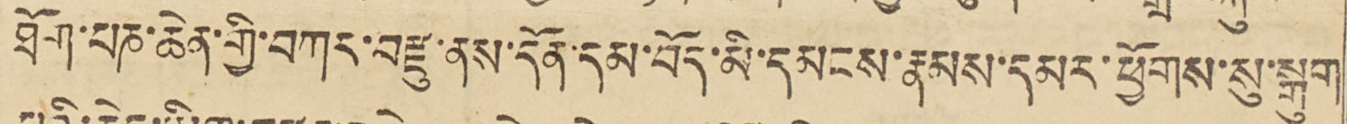ཐོག་པཎ་ཆེན་གྱི་བཀར་བརྫུ་ནས་དོན་དམ་བོད་མི་དམངས་རྣམས་དམར་ཕྱོགས་སུ་སྒུག
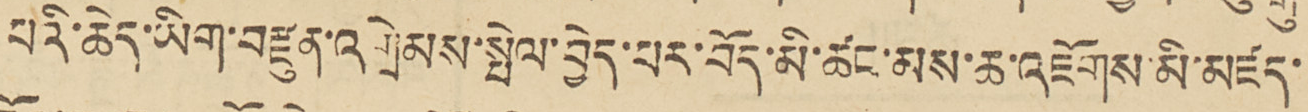པའི་ཆེད་ཡིག་བརྫུན་འགྲེམས་སྤེལ་བྱེད་པར་བོད་མི་ཚང་མས་ཆ་འཇོགས་མི་མཛད་
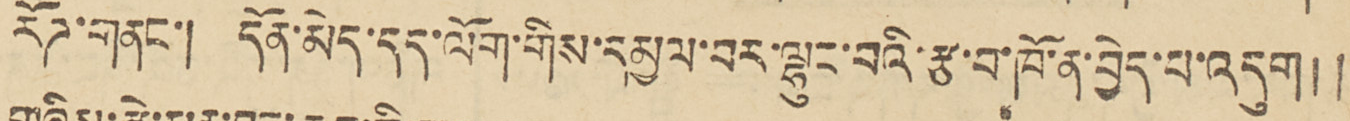རོཌ་གནང་། དོན་མེད་དད་ལོག་གིས་དམྱལ་བར་ལྷུང་བའི་རྩ་བ་ཁོ་ན་བྱེད་པ་འདུག།།།
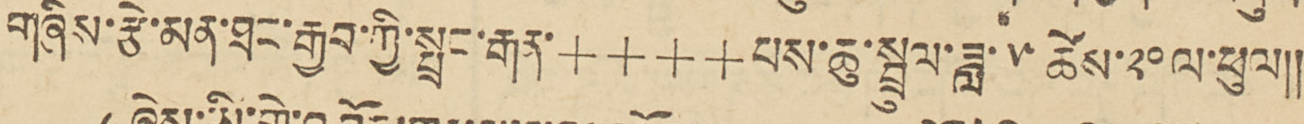གཞིས་རྩེ་ནམ་ཐང་རྒྱབ་ཀྱི་སྤྲང་རྒན་++++པས་ཆུ་སྦྲུལ་ཟླ་༥ཚེས་༢༠ལ་ཕུལ།།
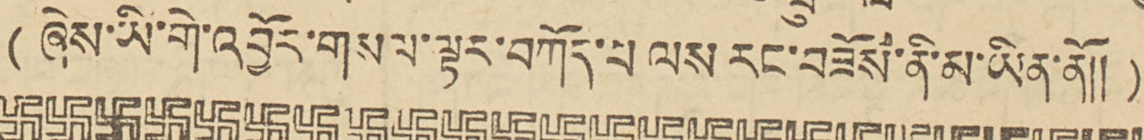( ཞེས་ཡི་གེ་འབྱོར་གསལ་ལྟར་བཀོད་པ ལས རང་བཟོས་ནི་མ་ཡིན་ནོ།། )
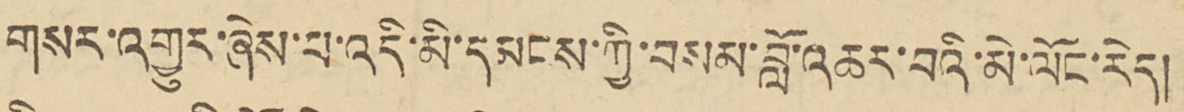གསར་འགྱུར་ཞེས་པ་འདི་མི་དམངས་ཀྱི་བསམ་བློ་འཆར་བའི་མེ་ལོང་རེད།
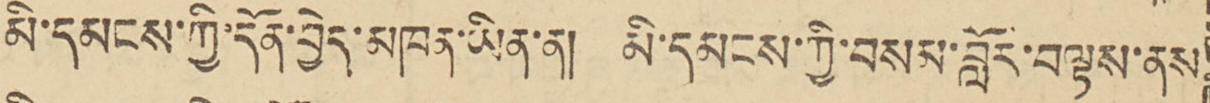མི་དམངས་ཀྱི་དོན་བྱེད་མཁན་ཡིན་ན། མི་དམངས་ཀྱི་བསམ་བློར་བལྟས་ནས
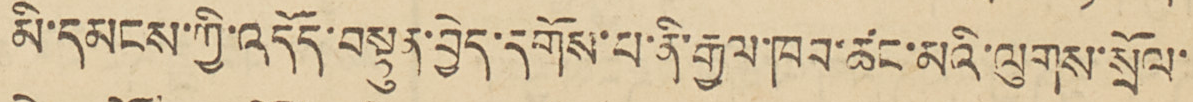མི་དམངས་ཀྱི་འདོད་བསྟུན་བྱེད་དགོས་པ་ནི་རྒྱལ་ཁབ་ཚང་མའི་ལུགས་སྲོལ་
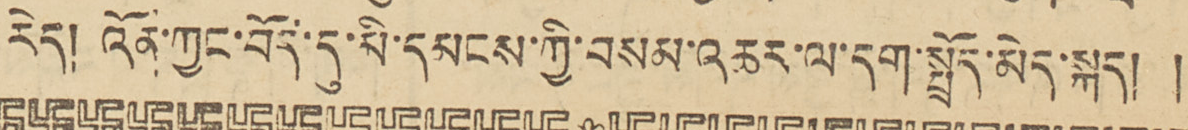རེད། འོན་ཀྱང་བོད་དུ་མི་དམངས་ཀྱི་བསམ་འཆར་ལ་དག་སྤྲོད་མེད་སྐད།།
